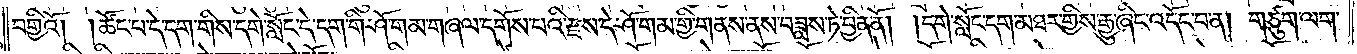བགྱིའོ། །ཚོང་པ་དེ་དག་གིས་དགེ་སློང་དེ་དག་གི་ཤོ་གམ་གཞལ་དགོས་པའི་རྫས་དེ་ཤོ་གམ་གྱི་གནས་ནས་བཟླས་ཏེ་བྱིན་ནོ། །དགེ་སློང་དག་མཐར་གྱིས་རྒྱུ་ཞིང་འདོང་བ་ན། གཙུག་ལག་
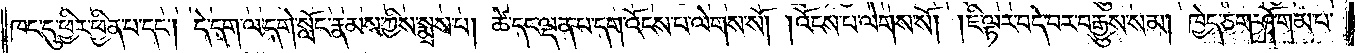ཁང་དུ་ཕྱིར་ཕྱིན་པ་དང༌། དེ་དག་ལ་དགེ་སློང་རྣམས་ཀྱིས་སྨྲས་པ། ཚེ་དང་ལྡན་པ་དག་འོངས་པ་ལེགས་སོ། །འོངས་པ་ལེགས་སོ། །ཇི་ལྟར་བདེ་བར་བརྒྱུས་སམ། ཁྱེད་ཅག་ཤོ་གམ་པ་
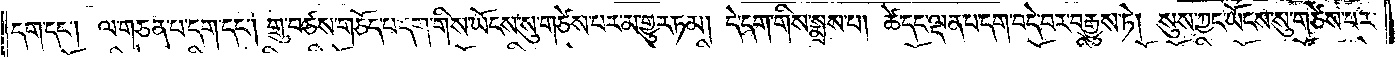དག་དང༌། ལ་གཅན་པ་དག་དང༌། གྲུ་བཙས་གཅོད་པ་དག་གིས་ཡོངས་སུ་གཙེས་པར་མ་གྱུར་ཏམ། དེ་དག་གིས་སྨྲས་པ། ཚ་དང་ལྡན་པ་དག་བདེ་བར་བརྒྱུས་ཏེ། སུས་ཀྱང་ཡོངས་སུ་གཙེས་པར་
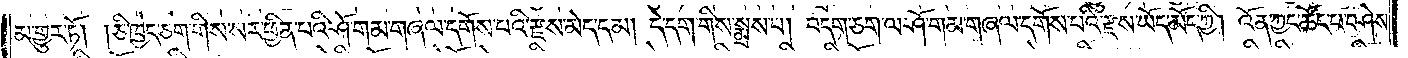མ་གྱུར་ཏོ། །ཅི་ཁྱེད་ཅག་གིས་སར་ཕྱིན་པའི་ཤོ་གམ་གཞལ་དགོས་པའི་རྫས་མེད་དམ། དེ་དག་གིས་སྨྲས་པ། བདག་ཅག་ལ་ཤོ་གམ་གཞལ་དགོས་པའི་རྫས་ཡོད་མོད་ཀྱི། འོན་ཀྱང་ཚོང་པ་བཤེས་
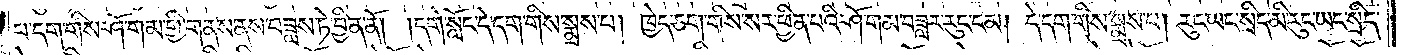པ་དག་གིས་ཤོ་གམ་གྱི་གནས་ནས་བཟླས་ཏེ་བྱིན་ནོ། །དགེ་སློང་དེ་དག་གིས་སྨྲས་པ། ཁྱེད་ཅག་གིས་སར་ཕྱིན་པའི་ཤོ་གམ་བཟླར་རུང་ངམ། དེ་དག་གིས་སྨྲས་པ། རུང་ཡང་སྲིད་མི་རུང་ཡང་སྲིད་
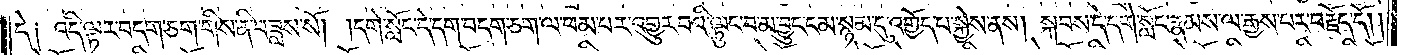དེ༑ འདི་ལྟར་བདག་ཅག་གིས་ནི་བཟླས་སོ། །དགེ་སློང་དེ་དག་བདག་ཅག་ལ་ཕམ་པར་འགྱུར་བའི་ལྟུང་བ་མ་བྱུང་ངམ་སྙམ་དུ་འགྱོད་པ་སྐྱེས་ནས། སྐབས་དེ་དགེ་སློང་རྣམས་ལ་རྒྱས་པར་བརྗོད་དོ། །
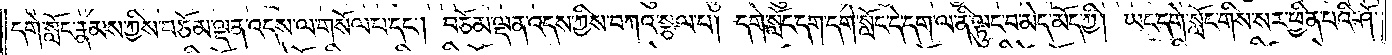དགེ་སློང་རྣམས་ཀྱིས་བཅོམ་ལྡན་འདས་ལ་གསོལ་པ་དང༌། བཅོམ་ལྡན་འདས་ཀྱིས་བཀའ་སྩལ་པ། དགེ་སློང་དག་དགེ་སློང་དེ་དག་ལ་ནི་ལྟུང་བ་མེད་མོད་ཀྱི། ཡང་དགེ་སློང་གིས་སར་ཕྱིན་པའི་ཤོ་
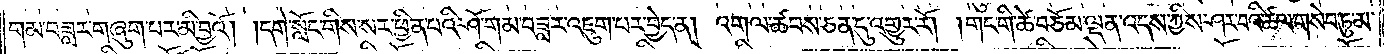གམ་བཟླར་གཞུག་པར་མི་བྱའོ། །དགེ་སློང་གིས་སར་ཕྱིན་པའི་ཤོ་གམ་བཟླར་འཇུག་པར་བྱེད་ན། འགལ་ཚབས་ཅན་དུ་འགྱུར་རོ། །གང་གི་ཚེ་བཅོམ་ལྡན་འདས་ཀྱིས་ཤར་བའི་ཚལ་གསེབ་ཏུ་མ་
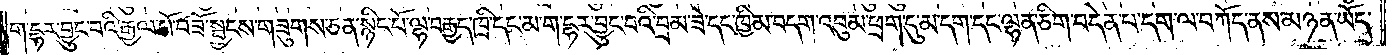ག་དྷར་བྱུང་བའི་རྒྱལ་པོ་བཟོ་སྦྱངས་གཟུགས་ཅན་སྙིང་པོ་ལྷ་བརྒྱད་ཁྲི་དང་མ་ག་དྷར་བྱུང་བའི་བྲམ་ཟེ་དང་ཁྱིམ་བདག་འབུམ་ཕྲག་དུ་མ་དག་དང་ལྷན་ཅིག་བདེན་པ་དག་ལ་བཀོད་ནས་མཉན་ཡོད་
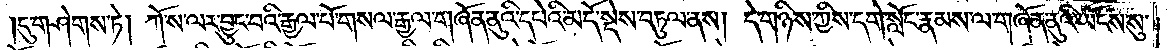དུ་གཤེགས་ཏེ། ཀོ་ས་ལར་བྱུང་བའི་རྒྱལ་པོ་གསལ་རྒྱལ་གཞོན་ནུའི་དཔེའི་མདོ་སྡེས་བཏུལ་ནས། དེ་གཉིས་ཀྱིས་དགེ་སློང་རྣམས་ལ་གཞོན་ནུའི་ཡོངས་སུ་
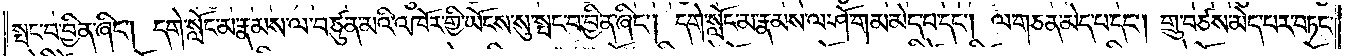སྤང་བ་བྱིན་ཞིང༌། དགེ་སློང་མ་རྣམས་ལ་བཙུན་མའི་འཁོར་གྱི་ཡོངས་སུ་སྤང་བ་བྱིན་ཞིང༌། དགེ་སློང་མ་རྣམས་ལ་ཤོ་གམ་མེད་པ་དང༌། ལ་གཅན་མེད་པ་དང༌། གྲུ་བཙས་མེད་པར་བཏང་
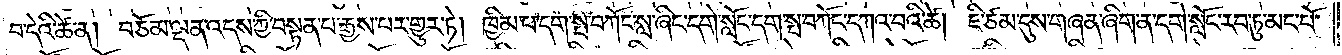བ་དེའི་ཚེ་ན། བཅོམ་ལྡན་འདས་ཀྱི་བསྟན་པ་རྒྱས་པར་གྱུར་ཏེ། ཁྱིམ་པ་དག་སྤ་བཀོང་སླ་ཞིང་དགེ་སློང་དག་སྤ་བཀོང་དཀའ་བའི་ཚེ། ཇི་ཙམ་དུས་གཞན་ཞིག་ན་དགེ་སློང་རབ་ཏུ་མང་པོ་
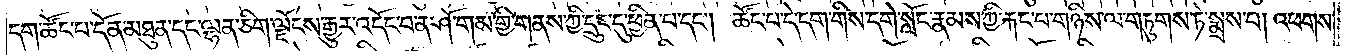དག་ཚོང་པ་དོན་མཐུན་དང་ལྷན་ཅིག་ལྗོངས་རྒྱུར་འདོང་བ་ན་ཤོ་གམ་གྱི་གནས་ཀྱི་དྲུང་དུ་ཕྱིན་པ་དང༌། ཚོང་པ་དེ་དག་གིས་དགེ་སློང་རྣམས་ཀྱི་རྐང་པ་གཉིས་ལ་གཏུགས་ཏེ་སྨྲས་པ། འཕགས་
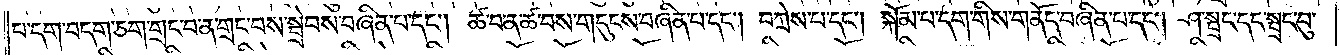པ་དག་བདག་ཅག་གྲང་བ་ན་གྲང་བས་སྦྲེབས་བཞིན་པ་དང༌། ཚ་བ་ན་ཚ་བས་གདུངས་བཞིན་པ་དང༌། བཀྲེས་པ་དང༌། སྐོམ་པ་དག་གིས་གནོད་པ་བཞིན་པ་དང༌། ཤ་སྦྲང་དང་སྦྲང་བུ་
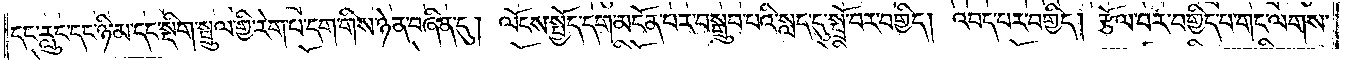དང་རླུང་དང་ཉི་མ་དང་སྡིག་སྤྲུལ་གྱི་རེག་པ་དག་གིས་ཉེན་བཞིན་དུ། ལོངས་སྤྱོད་དག་མངོན་པར་བསྒྲུབ་པའི་སླད་དུ་སྤྲོ་བར་བགྱིད། འབད་པར་བགྱིད། རྩོལ་བར་བགྱིད་པ་གང་ལགས་
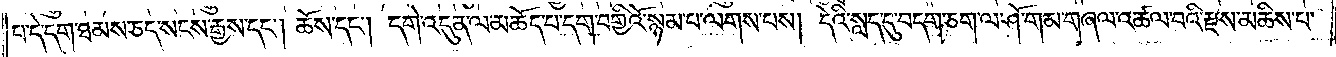པ་དེ་དག་ཐམས་ཅད་སངས་རྒྱས་དང༌། ཆོས་དང༌། དགེ་འདུན་ལ་མཆོད་པ་དག་བགྱིའོ་སྙམ་པ་ལགས་པས། དེའི་སླད་དུ་བདག་ཅག་ལ་ཤོ་གམ་གཞལ་འཚལ་བའི་རྫས་མཆིས་པ་
